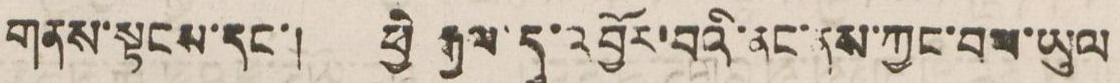གནས་སྟངས་དང་། ཕྱི རྒྱལ་དུ་འབྱོན་བའི་ནང་ནས་ཀྱང་བལ་ཡུལ
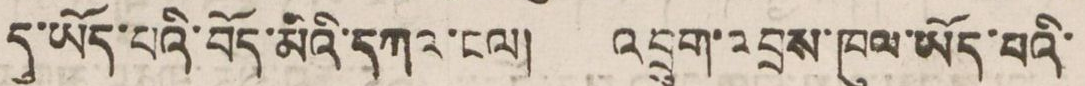དུ་ཡོད་པའི་བོད་མིའི་དཀའ་ངལ། འབྲུག་འབྲས་ཁུལ་ཡོད་པའི་
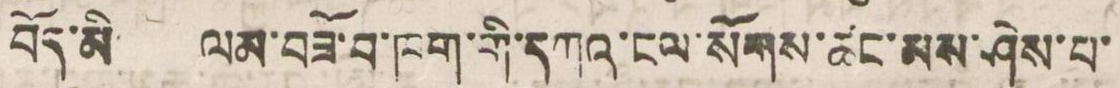བོད་མི ལམ་བཟོ་བ་ཁག་གི་དཀའ་ངལ་སོགས་ཚང་མས་ཤེས་པ་
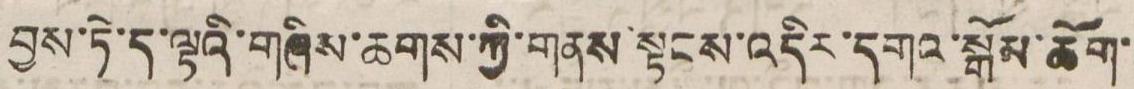བྱས་ཏེ་ད་ལྟའི་གཞིས་ཆགས་ཀྱི་གནས་སྟངས་འདིར་དགའ་སྒོམ་ཆོག་
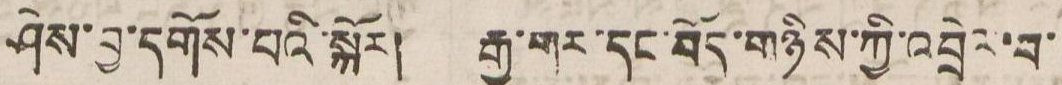ཤེས་བྱ་དགོས་པའི་སྐོར། རྒྱ་གར་དང་བོད་གཉིས་ཀྱི་འབྲེལ་བ་
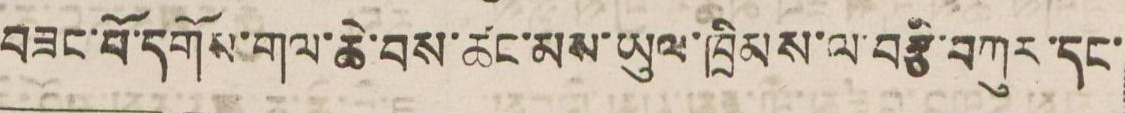བཟང་པོ་དགོས་གལ་ཆེ་བས་ཚང་མས་ཡུལ་ཁྲིམས་ལ་བརྩི་བཀུར་དང་
